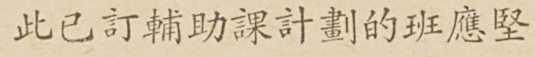此已訂輔助課計劃的班應堅
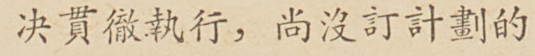決貫徹執行，尚沒訂計劃的
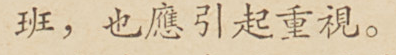班，也應引起重視。
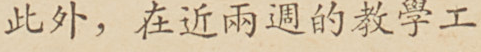此外，在近兩週的教學工
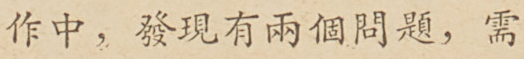作中，發現有兩個問題，需
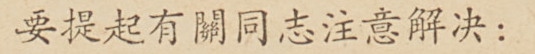要提起有關同志注意解決：
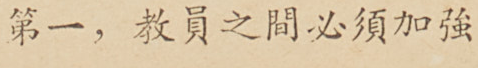第一，教員之間必須加強
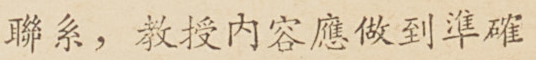聯系，教授內容應做到準確
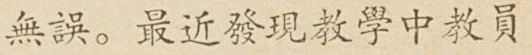無誤。最近發現教學中教員
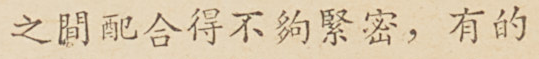之間配合得不夠緊密，有的
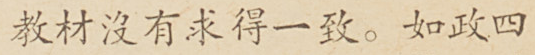教材沒有求得一致。如政四
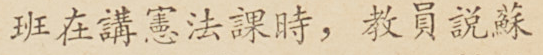班在講憲法課時，教員說蘇
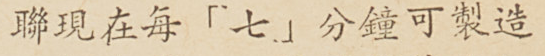聯現在每「七」分鐘可製造
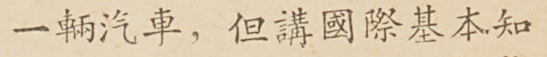一輛汽車，但講國際基本知
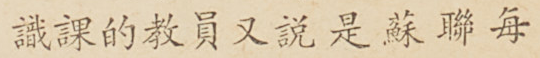識課的教員又說是蘇聯每
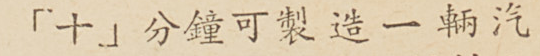「十」分鐘可製造一輛汽
